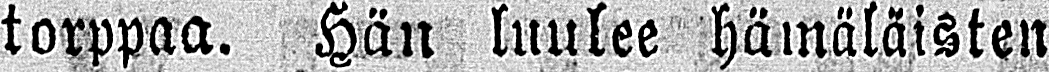torppaa. Hän luulee hämäläisten
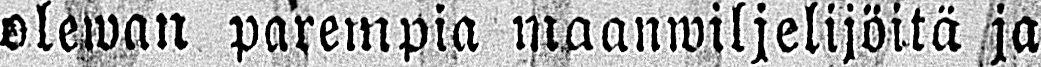olewan parempia maanwiljelijöitä ja
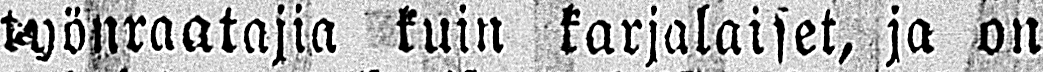työnraatajia kuin karjalaiset, ja on
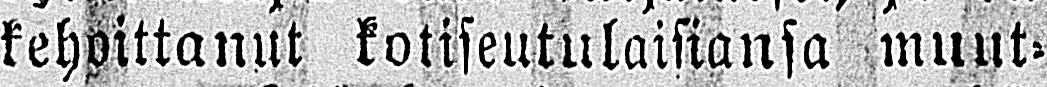kehoittanut kotiseutulaisiansa muut-
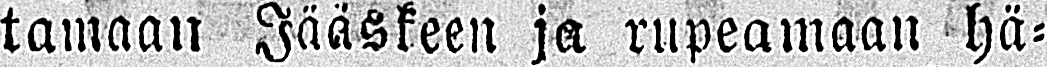tamaan Jääskeen ja rupeamaan hä-
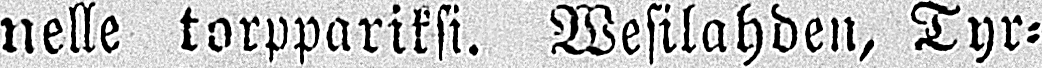nelle torppariksi. Wesilahden, Tyr-
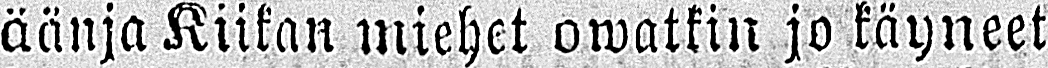äänja Kiikan miehet owatkin jo käyneet
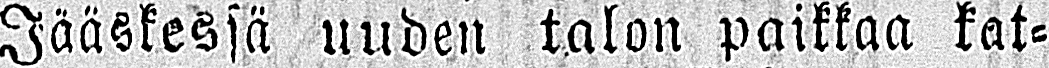Jääskessä uuden talon paikkaa kat-
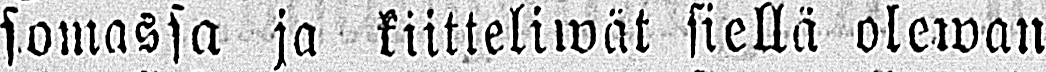somassa ja kiitteliwät siellä olewan
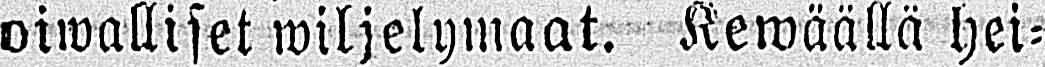oiwalliset wiljelymaat. Kewäällä hei-
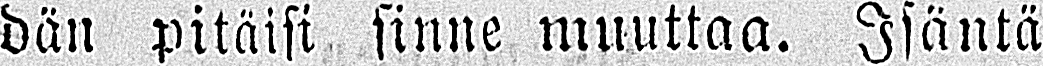dän pitäisi sinne muuttaa. Isäntä
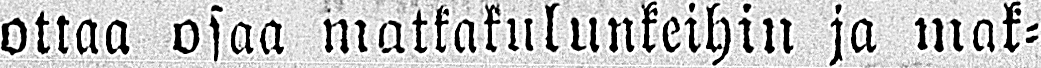ottaa osaa matkakulunkeihin ja mak-
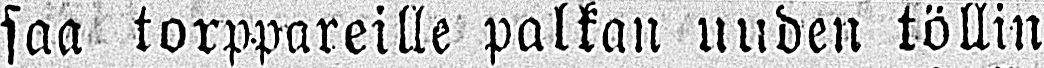saa torppareille palkan uuden töllin
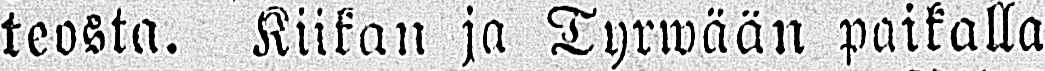teosta. Kiikan ja Tyrwään paikalla
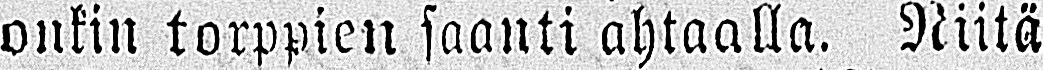onkin torppien saanti ahtaalla. Niitä
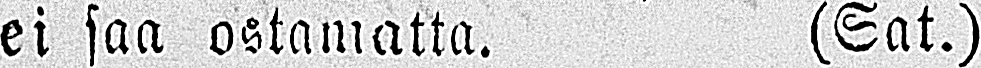ei saa ostamatta. (Sat.)
